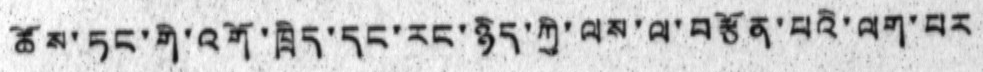ཆོས་ཏང་གི་འགོ་ཁྲིད་དང་རང་ཉིད་ཀྱི་ལས་ལ་བརྩོན་པའི་ལག་པར
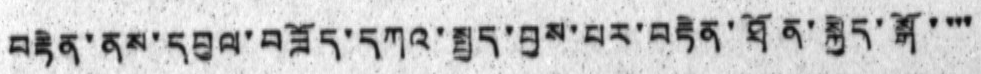བརྟེན་ནས་དབུལ་བཟོད་དཀའ་སྤྱད་བྱས་པར་བརྟེན་ཐོན་སྐྱེད་སྒོ་་་་
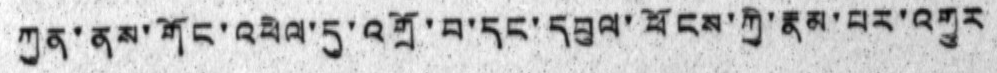ཀུན་ནས་གོང་འཕེལ་དུ་འགྲོ་བ་དང་དབུལ་ཕོངས་ཀྱི་རྣམ་པར་འགྱུར
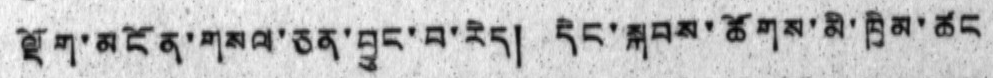ལྡོག་མངོན་གསལ་ཅན་བྱུང་བ་རེད། དེང་སྐབས་ཚོགས་མི་ཁྱིམ་ཚང
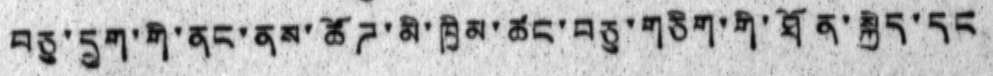བཅུ་དྲུག་གི་ནང་ནས་ཚོཌ་མི་ཁྱིམ་ཚང་བཅུ་གཅིག་གི་ཐོན་སྐྱེད་དང
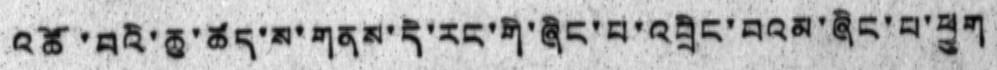འཚོ་བའི་ཆུ་ཚད་ས་གནས་དེ་རང་གི་ཞིང་པ་འབྲིང་བའམ་ཞིང་པ་ཕྱུག
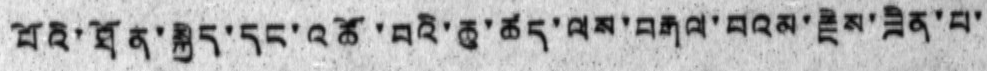པོའི་ཐོན་སྐྱེད་དང་འཚོ་བའི་ཆུ་ཚད་ལས་བརྒལ་བའམ་རྗེས་ཟིན་པ་
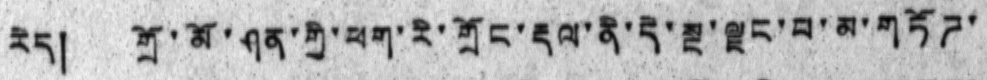རེད། གྲོ་མོ་ཤན་གྱི་ཕག་རི་གྲོང་རྡལ་ནི་དེ་སྔ་ལྗང་པ་མ་གཏོཌ་
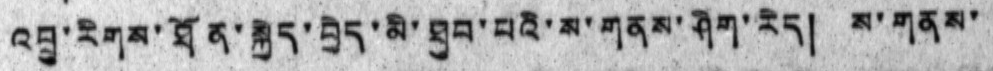འབྲུ་རིགས་ཐོན་སྐྱེད་བྱེད་མི་ཐུབ་པའི་ས་གནས་ཤིག་རེད། ས་གནས་
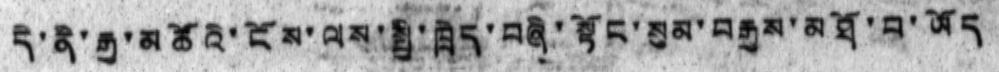དེ་ནི་རྒྱ་མཚོའི་ངོས་ལས་སྤྱི་ཁྲེད་བཞི་སྟོང་སུམ་བརྒྱས་མཐོ་བ་ཡོད
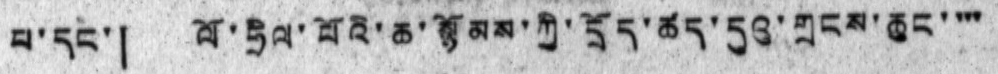པ་དང་། ལོ་ཧྲིལ་པོའི་ཆ་སྙོམས་ཀྱི་དྲོད་ཚད་དུའུ་གྲངས་ཆུང་་་་
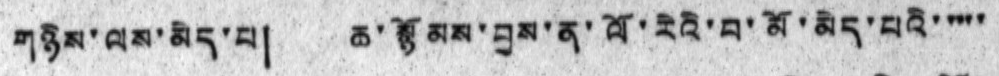གཉིས་ལས་མེད་པ། ཆ་སྙོམས་བྱས་ན་ལོ་རེའི་བ་མོ་མེད་པའི་་་་་
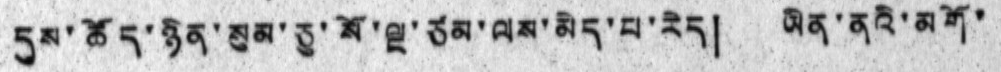དུས་ཚོད་ཉིན་སུམ་ཅུ་སོ་ལྔ་ཙམ་ལས་མེད་པ་རེད། ཡིན་ནའི་མགོ་
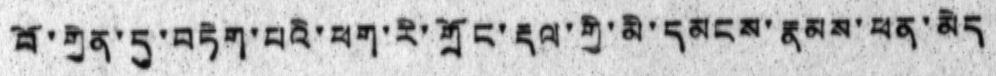བོ་གྱེན་དུ་བཏེག་པའི་ཕག་རི་གྲོང་རྡལ་གྱི་མི་དམངས་རྣམས་ཕན་མེད
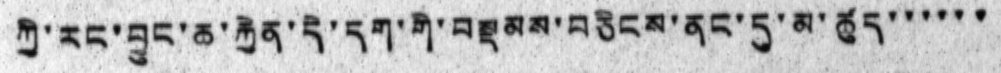ཀྱི་རང་བྱུང་ཆ་རྐྱེན་དེ་དག་གི་བསྡམས་བཅིངས་ནང་དུ་མ་ཚུད་་་་་་
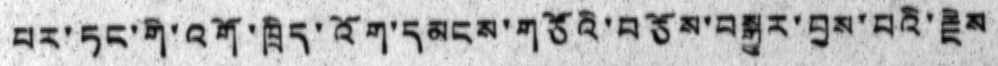པར་ཏང་གི་འགོ་ཁྲིད་འོག་དམངས་གཙོའི་བཅོས་བསྒྱུར་བྱས་པའི་རྗེས
